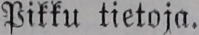Pikku tietoja.
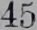45
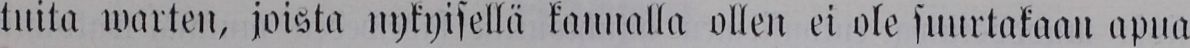tuita warten, joista nykyisellä kannalla ollen ei ole suurtakaan apua
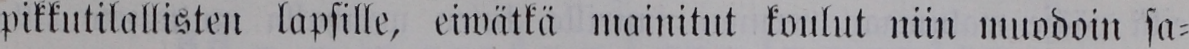pikkutilallisten lapsille, eiwätkä mainitut koulut niin muodoin sa-
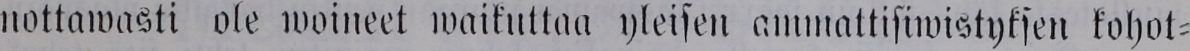nottowasti ole woineet waikuttaa yleisen ammattisiwistyksen kohot-
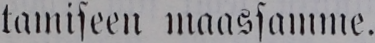tamiseen maassamme.
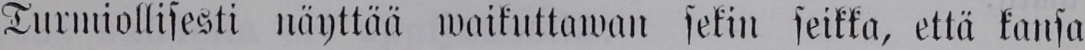Turmiollisesti näyttää waikuttawan sekin seikka, että kansa
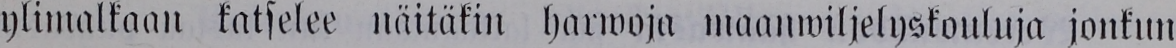ylimalkaan katselee näitäkin harwoja maanwiljelyskouluja jonkun
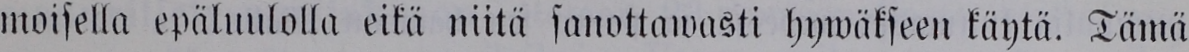moisella epäluulolla eikä niitä sanottawasti hywäkseen käytä. Tämä
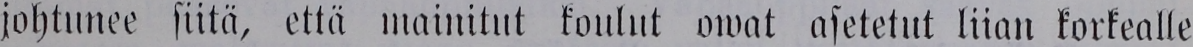johtunee siitä, että mainitut koulut owat asetetut liian korkealle
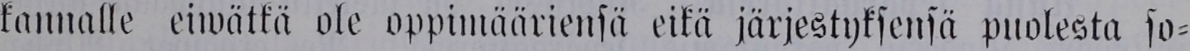kannalle eiwätkä ole oppimääriensä eikä järjestyksensä puolesta so-
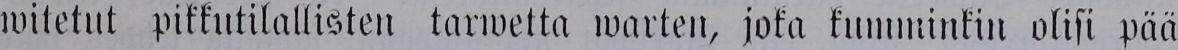witetut pikkutilallisten tarwetta warten, joka kumminkin olisi pää-
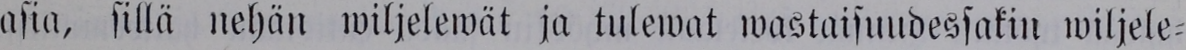asia, sillä nehän wiljelewät ja tulewat wastaisuudessakin wiljele-
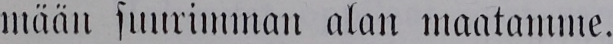mään suurimman alan maatamme.
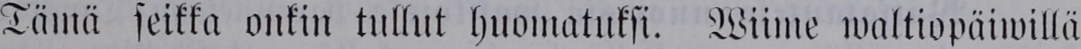Tämä seikka onkin tullut huomatuksi. Wiime maltiopäiwillä
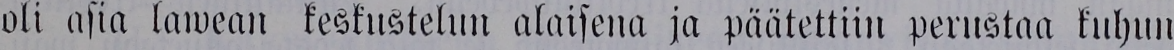oli asia lawean keskustelun alaisena ja päätettiin perustaa kuhun-
